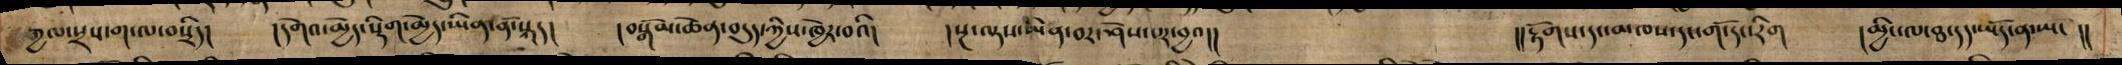རྒྱལ་སྲས་ག་ལ་སྲིད། །དགེའ་མྱེད་སྡིག་ྨཡེད་ཡིན་ནོ་སྐད། བསྒོམ་ཆེན་བདུད་ཀྱིས་ཁྱེར་བའི། །སྔ་ལྟས་མིན་བར་ཤེས་པར་བྱའ།། །།རྟོགས་དང་མཁས་དང་གོ་དང་རིག །མྱིང་ལ་ཐ་དད་ཡོད་ན་ཡང །།
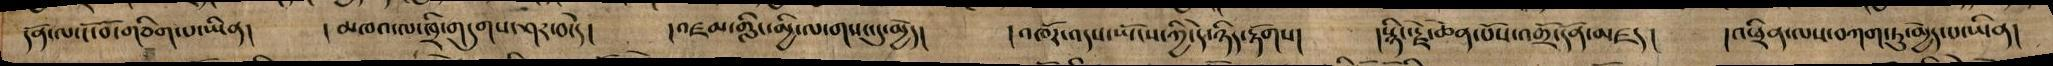དོན་ལ་ངོ་བོ་གཅིག་པ་ཡིན། །མཁའ་ལ་ཁྲི་གདུགས་ཤར་བ་དེ། །འཛམ་གླིང་མྱི་ལ་གསང་དུ་མྱེད། །འཁོར་འདས་ཡོངས་ཀྱི་དེ་ཉིད་རྟོགས། །སྙིང་རྗེ་ཆེན་པོས་འགྲོ་དོན་མཛད། །འཕྲིན་ལས་བཀག་ཏུ་མྱེད་པ་ཡིན།
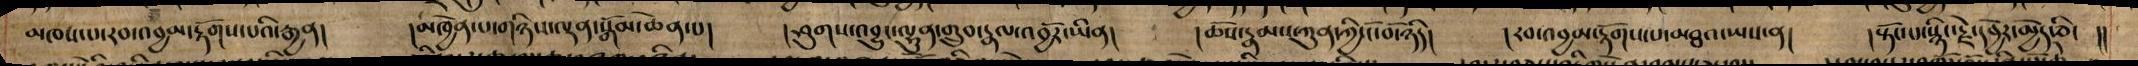མཁས་པ་རབ་འབྱམ་རྟོགས་པའི་རྒྱན། །མཁྱེན་པ་གཉིས་ལྡན་སྒོམ་ཆེན་པ། །ཤུགས་འབྱུང་ལྷུན་གྲུབ་རྣལ་འབྱོར་ཡིན། །ཆོས་རྣམས་ཀུན་ཀྱི་ངོ་བོ་ཉིད། །རབ་འབྱམ་རྟོགས་པ་མཐའ་ཡས་ན། །སྟོང་པ་སྙིང་རྗེ་དབྱེར་མྱེད་ཅིང །།
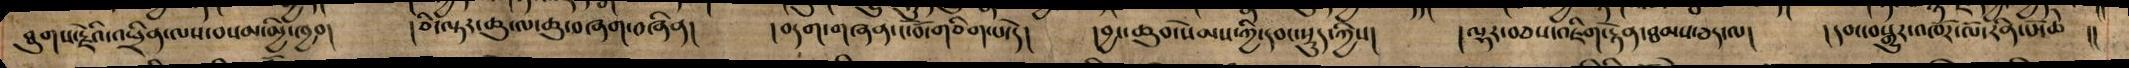ཐུགས་རྗེའི་འཕྲིན་ལས་བསམ་མྱི་ཁྱབ། །ཅི་ལྟར་ཆུ་ལ་ཆུ་བཞག་བཞིན། །བདག་གཞན་ངོ་བོ་གཅིག་པ་དེ། །བྱང་ཆུབ་སེམས་ཀྱི་དབང་སྡུད་ཀྱིས། །ལྷར་བཅས་འཇིག་རྟེན་ཐམས་ཅད་ལ། །དབང་བསྒྱུར་འཁོར་ལོ་རིན་པོ་ཆེ །།
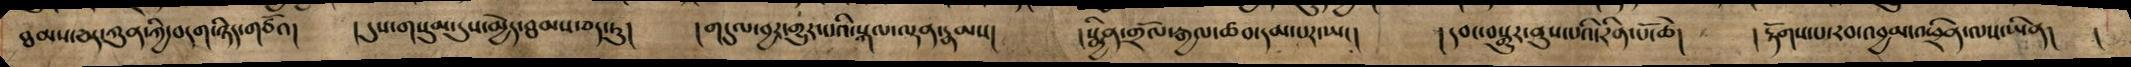ཐམས་ཅད་ཀུན་ཀྱི་བདག་ཉིད་གཙོའ། །དུས་གསུམ་དུས་མྱེད་ཐམས་ཅད་ཏུ། །གདུལ་བྱར་གྱུར་པའི་སྐལ་ལྡན་རྣམས། །སྨྱིན་གྲོལ་རྒྱལ་ཚབ་དམ་པར་ཡང། །དབང་བསྒྱུར་ནུས་པའི་རིན་པོ་ཆེ། །རྟོགས་པ་རབ་འབྱམ་འཕྲིན་ལས་ཡིན། །
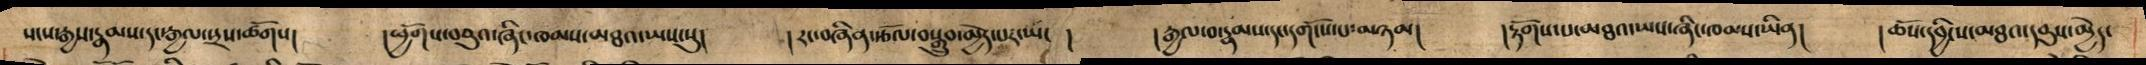སངས་རྒྱས་རྣམས་དང་རྒྱལ་སྲས་ཚོགས། །ཕྱོགས་བཅུའ་ཞིང་ཁམས་མཐའ་ཡས་སུ། །རང་བཞཱིན་རྩོལ་བསྒྲུབ་མྱེད་པར་ཡང ། །རྒྱལ་བ་རྣམས་དང་དགོངས་པ་མཉམ། །རྟོགས་པ་མཐའ་ཡས་ཞིང་ཁམས་ཡིན། །ཆོས་དབྱིངས་མཐའ་དབུས་མྱེད་
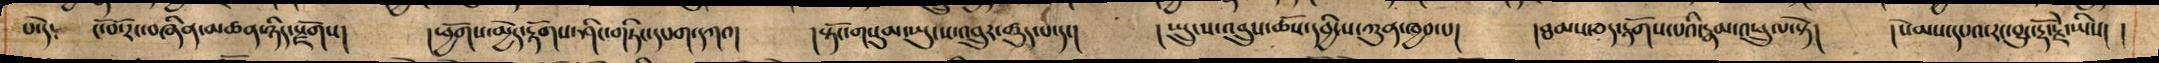པ་དེ༴ ངོ་བོ་རང་བཞིན་མཚན་ཉིད་སྫོགས། །ཕྱོགས་མྱེད་རྟོགས་ཤིང་གཏིང་དཔག་དཀའ། །སྟོང་གསུམ་ཡུངས་འབྲུར་ཚུད་པ་དང། །སྤྲུངས་འབྲུས་ཆོས་དབྱིངས་ཀུན་ཁྱབ་པ། །ཐམས་ཅད་རྟོགས་པའི་རྣམ་འཕྲུལ་སྟེ། །སེམས་དཔའ་རང་བྱུང་རྡོ་རྗེ་ཡིས། །
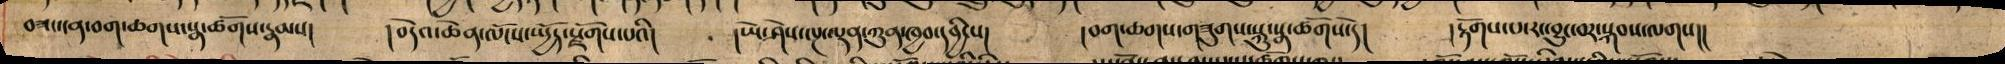བཟང་ངན་བག་ཆགས་སྣ་ཚོགས་རྣམས། །བདེའ་ཆེན་ལོངས་སྤྱོད་སྫོགས་པའི། །ཡེ་ཤེས་ལྔ་ལྡན་ཀུན་ཁྱབ་དབྱིངས། །བག་ཆགས་གཟུགས་སྐུ་སྣ་ཚོགས་དེ། །རྟོགས་པ་རང་བྱུང་བར་སྐབས་ལགས།།
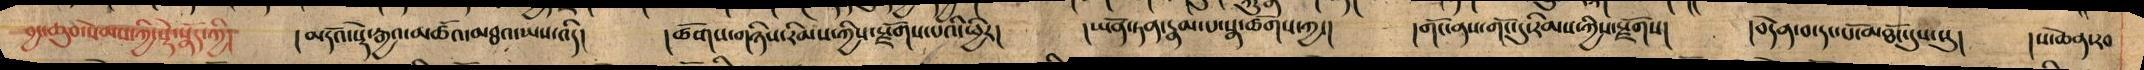བྱང་ཆུབ་སེམས་ཀྱི་སྡེ་སྣོད་ཀྱི། །མདོའ་སྡེ་རྒྱའ་མཚོའ་མཐའ་ཡས་འདི། །ཚོགས་གཉིས་རིམས་ཀྱིས་སྫོགས་པའི་ཕྱིར། །ཡོན་ཏན་རྣམ་པ་སྣ་ཚོགས་ཀྱང། །གོང་ནས་གོང་དུ་རིམས་ཀྱིས་སྫོགས། །བདེན་བ་དང་པོ་མཐོང་དུས་སུ། །ས་ཆེན་རབ
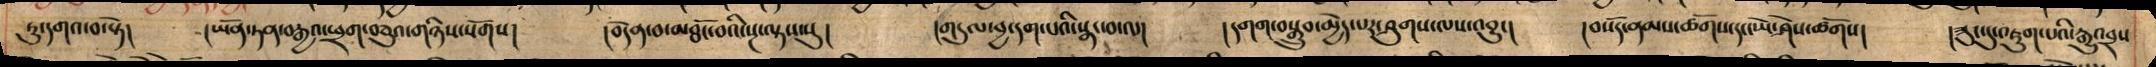ཏུ་དགའ་བ་སྟེ། །ཡོན་ཏན་བརྒྱའ་ཕྲག་བཅུའ་གཉིས་སོགས། །བདེན་བ་མཐོང་བའི་སྔ་ལྟས་སུ། །གདུལ་བྱ་དག་པའི་སྣང་བ་ལ། །དགག་བསྒྲུབ་མྱེད་པར་ཤུགས་ལས་འབྱུང། །བསོད་ནམས་ཚོགས་དང་ཡེ་ཤེས་ཚོགས། །ཟུང་དུ་འཇུག་པའི་རྒྱུ་འབྲས
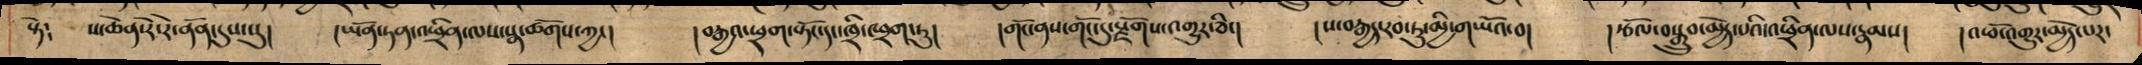སྟེ༴ ས་ཆེན་རེ་རེ་ནོན་དུས་སུ། །ཡོན་ཏན་འཕྲིན་ལས་སྣ་ཚོགས་ཀྱང། །བརྒྱའ་ཕྲག་སྟོང་དང་ཁྲི་ཕྲག་ཏུ། །གོང་ནས་གོང་དུ་སྫོགས་འགྱུར་ཅིང། །ས་བརྒྱད་རབ་ཏུ་མྱི་གཡོའ་བ། །རྩོལ་བསྒྲུབ་མྱེད་པའི་འཕྲིན་ལས་རྣམས། །འཕོ་འགཡུར་མྱེད་པར་
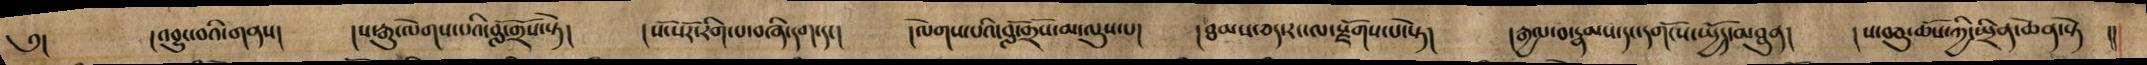༅། །འབྱུང་བའི་གནས། །ས་རྒྱུ་ལེགས་པའི་བློ་གྲོས་སྟེ། །སོ་སོར་རིག་པ་བཞི་དག་དང། །ལེགས་པའི་བློ་གྲོས་མ་ལུས་པ། །ཐམས་ཅད་རང་ལ་སྫོགས་པ་སྟེ། །རྒྱལ་བ་རྣམས་དང་དགོངས་སྤྱོད་མཐུན། །ས་བཅུ་ཆོས་ཀྱི་སྤྲིན་ཆེན་སྟེ །།
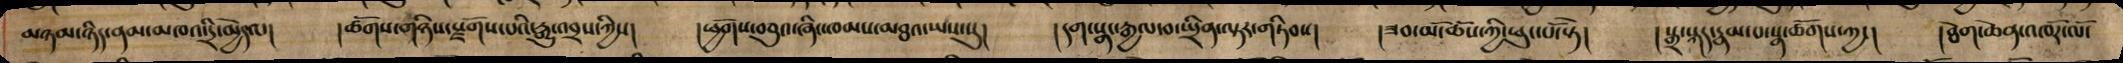མཉམ་ཉིད་ནམ་མཁའ་དྲི་མྱེད་པ། །ཚོགས་གཉིས་སྫོགས་པའི་རྒྱུ་འབྲས་ཀྱིས། །ཕྱོགས་བཅུའ་ཞིང་ཁམས་མཐའ་ཡས་སུ། དག་སྣང་རྒྱལ་བ་སྤྲིན་ལྟར་གཏིབས། །ཟབ་མོ་ཆོས་ཀྱི་ཕུང་པོ་སྟེ། །སྒྲ་སྐད་རྣམ་པ་སྣ་ཚོགས་ཀྱང། །ཐེག་ཆེན་འཁོར་ལོ་
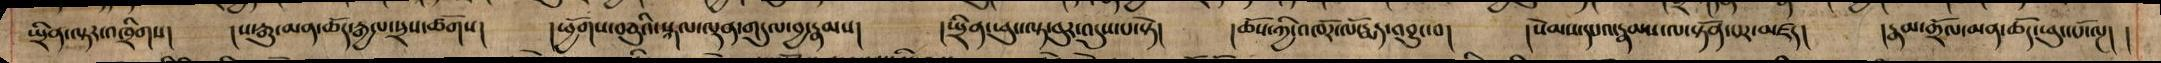སྤྲིན་ལྟར་འཁྲིགས། །ས་རྒྱུ་མན་ཆོད་རྒྱལ་སྲས་ཚོགས། །ཕྱོགས་བཅུའི་སྐལ་ལྡན་གདུལ་བྱ་རྣམས། །སྤྲན་ཕུང་ལྟ་བུར་འདུས་པ་སྟེ། །ཆོས་ཀྱི་འཁོར་ལོ་རྨད་འབྱུང་བ། །སེམས་དཔའ་རྣམས་ལ་སྟོན་པར་མཛད། །རྣམ་གྲོལ་མན་ཆོད་ཕུང་པོ་ལྔ། །
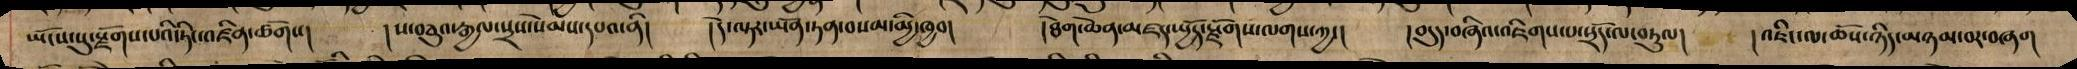ཡོངས་སུ་སྫོགས་པའི་ཏིང་འཛིན་ཚོགས། །ས་བཅུའ་རྒྱལ་སྲས་སེམས་དཔའ་ནི། །དེ་ལྟར་ཡོན་ཏན་བསམ་མྱི་ཁྱབ། །ཐེག་ཆེན་མཛད་སྤྱོད་སྫོགས་ལགས་ཀྱང། །བདུད་བཞིའ་འཇིགས་པ་སྲོད་ལ་བཏུལ། །འཇིང་ལ་ཆོས་ཉིད་མཉམ་བར་བཞག
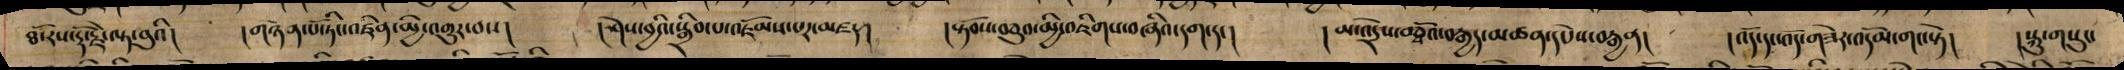ཐོ་རས་རྡོ་རྗེ་ལྟ་བུའི། །གཉེན་པོ་ཏིང་འཛིན་མྱི་འགྱུར་བས། །ཤེས་བྱའི་སྒྲིབ་པ་འཇོམས་པར་མཛད། །སྟོབས་བཅུའ་མྱི་འཇིགས་བཞིའ་དག་དང། །མ་འདྲེས་བཅྭོའ་བྲྒཡད་མཚན་དཔེས་བརྒྱན། །འོད་དང་འོད་གཟེར་གདོམ་གང་སྟེ། །སྐུ་གསུང་
